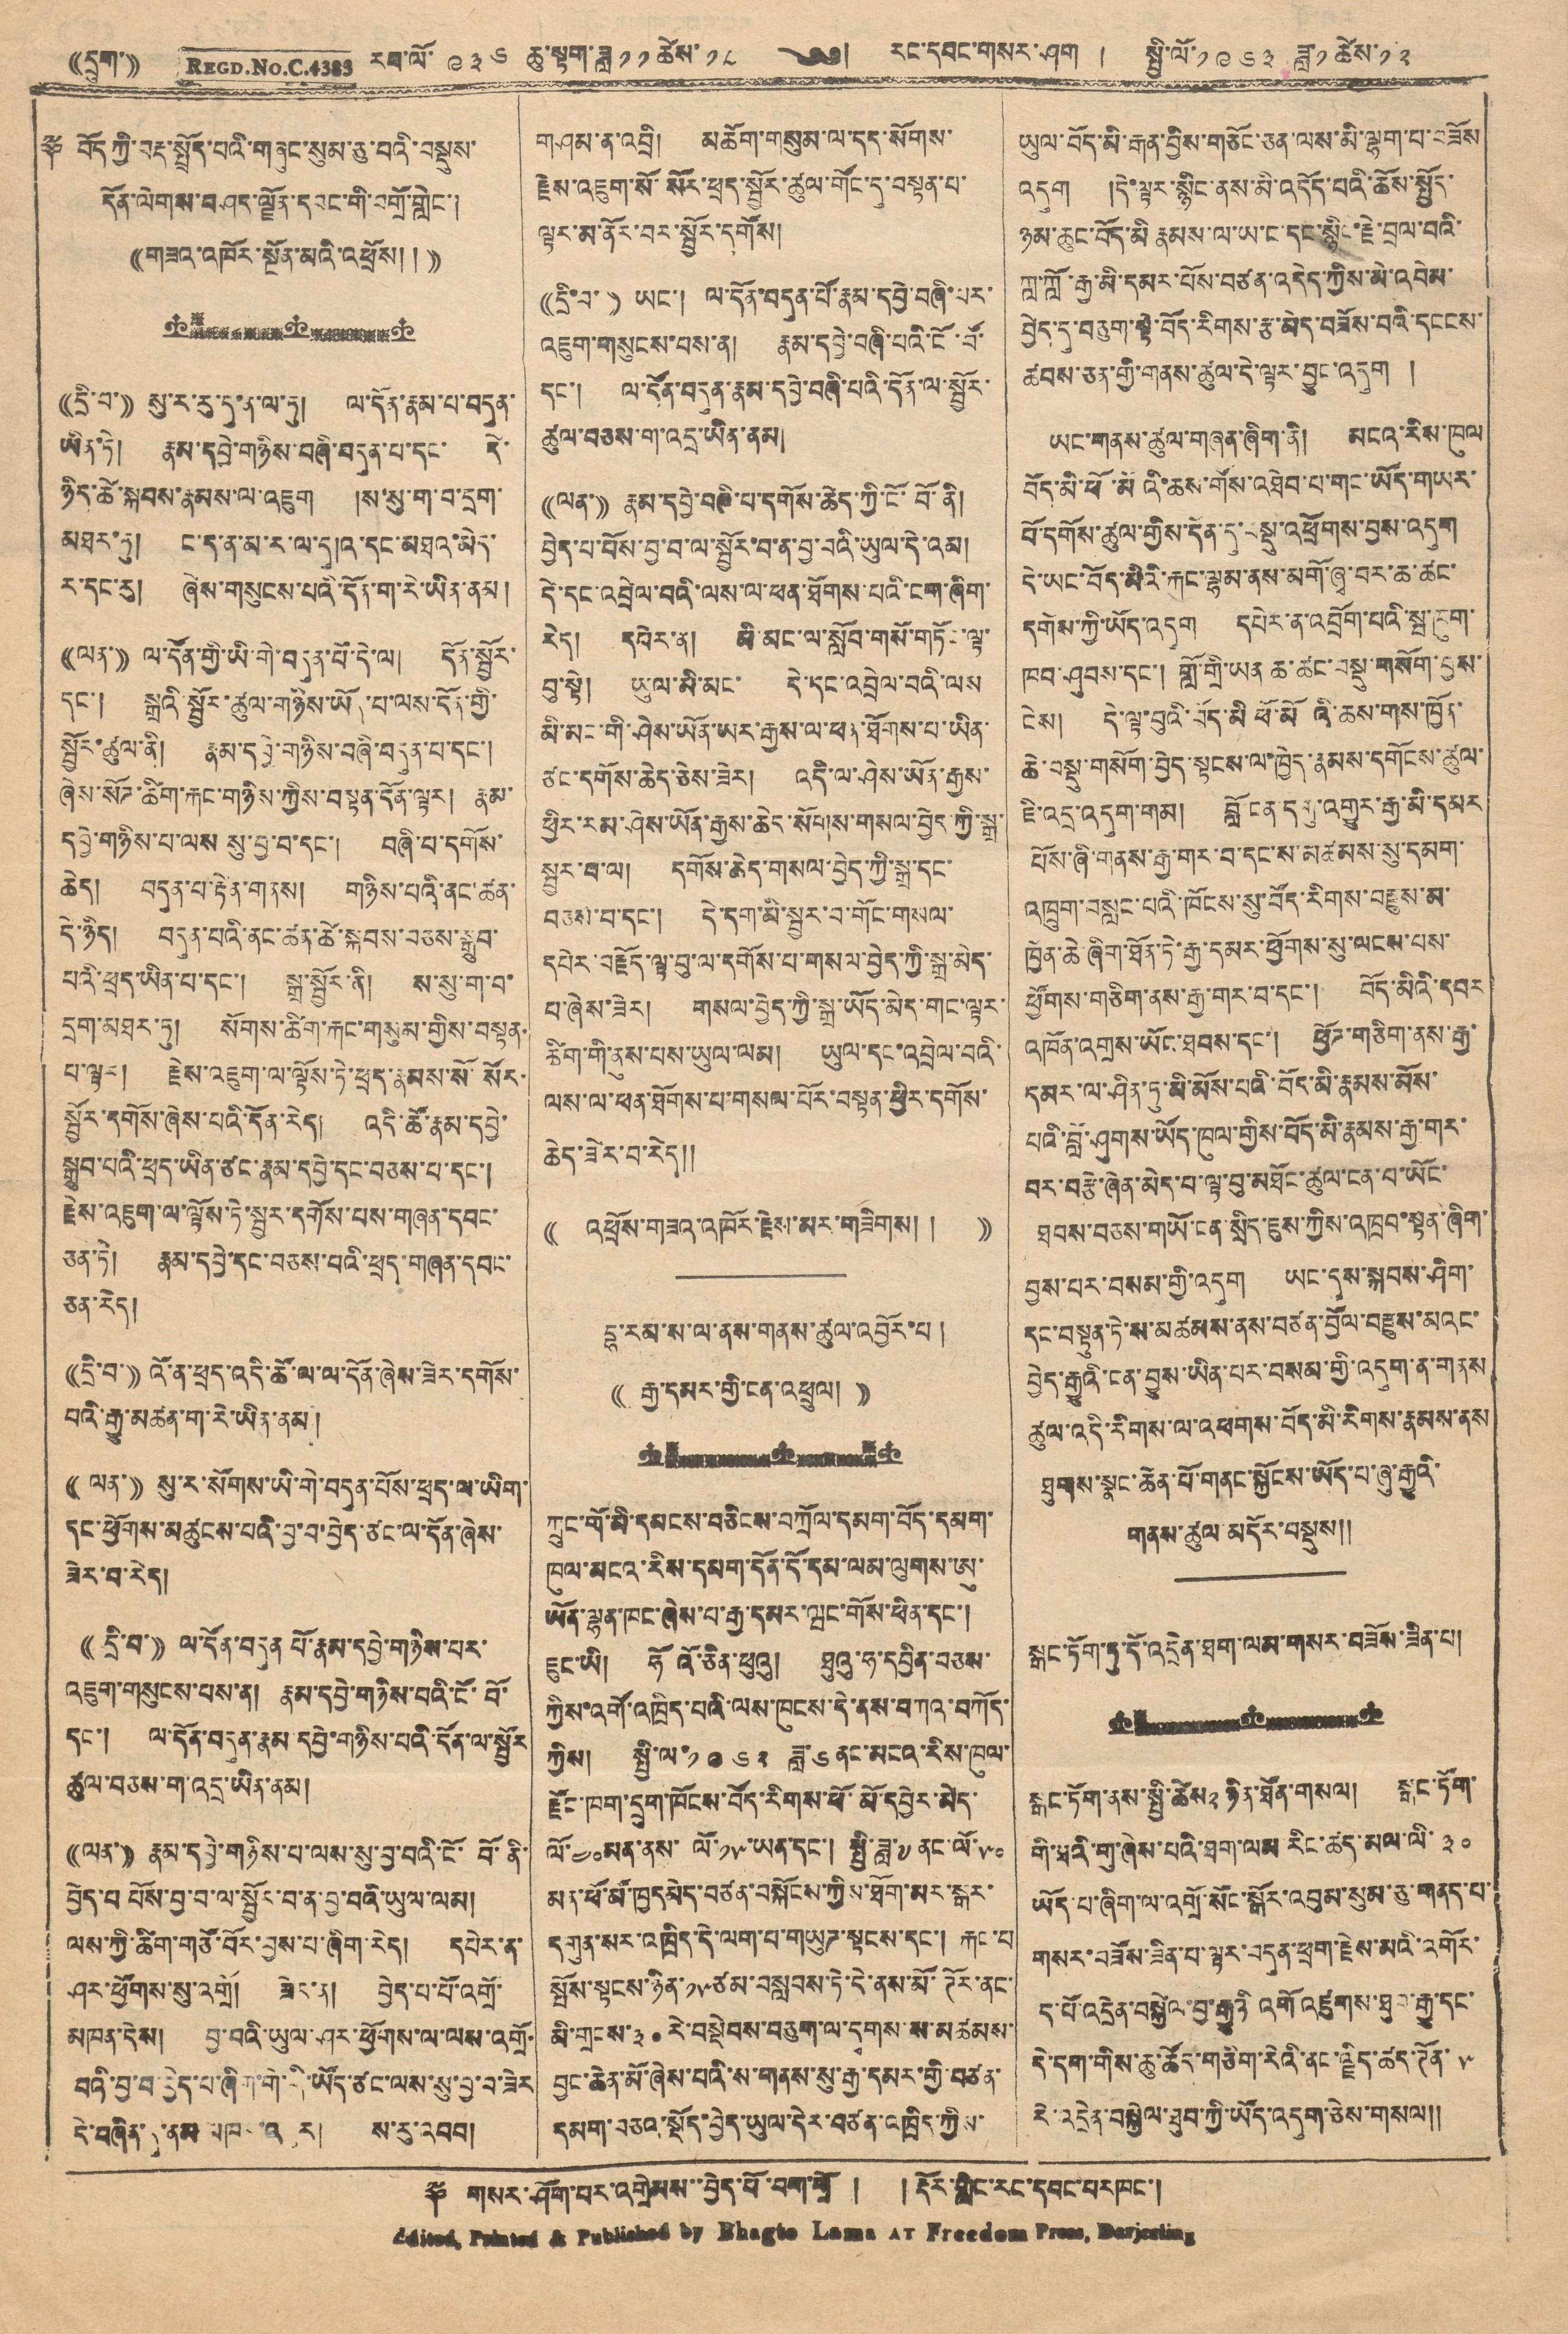(( དྲུག་ )) REGD. NO. C. 4383 རབ་ལོ་ ༩༣༦ ཆུ་སྟག་ཟླ ༡༡ ཚེས་ ༡༨ ༄༅། རང་དབང་གསར་ཤོག ། སྤྱི་ལོ་༡༩༦༣ ཟླ་༡ ཚེས་༡༢
༈ བོད་ཀྱི་བརྡ་སྤྲོད་པའི་གཞུང་སུམ་ཅུ་བའི་བསྡུས་
དོན་ལེགས་བཤད་ལྗོང་དབང་གི་བགྲོ་གླེང་།
((གཟའ་འཁོར་སྔོན་མའི་འཕྲོས། །))
((དྲི་བ་)) སུ་ར་རུ་དུ་ན་ལ་ཏུ། ལ་དོན་རྣམ་པ་བདུན་
ཡིན་ཏེ། རྣམ་དབྱེ་གཉིས་བཞི་བདུན་པ་དང་། དེ་
ཉིད་ཚེ་སྐབས་རྣམས་ལ་འཇུག །ས་སུ་ག་བ་དྲག་
མཐར་ཏུ། ང་ད་ན་མ་ར་ལ་དུ།འ་དང་མཐའ་མེད་
ར་དང་རུ། ཞེས་གསུངས་པའི་དོན་ག་རེ་ཡིན་ནམ།
((ལན་)) ལ་དོན་གྱི་ཡི་གེ་བདུན་པོ་དེ་ལ། དོན་སྦྱོར་
དང་། སྒྲ་སྦྱོར་ཚུལ་གཉིས་ཡོད་པ་ལས་དོན་གྱི་
སྦྱོར་ཚུལ་ནི། རྣམ་དབྱེ་གཉིས་བཞི་བདུན་པ་དང་།
ཞེས་སོཊ་ཚིག་སྐང་གནཡིས་ཀྱིས་བསྟན་དོན་ལྟར། རྣམ་
དབྱེ་གཉིས་པ་ལས སུ་བྱ་བ་དང་། བཞི་པ་དགོས་
ཆེད། བདུན་པ་རྟེན་གནས། གཉིས་པའི་ནང་ཚན་
དེ་ཉིད། བདུན་པའི་ནང་ཚན་ཚེ་སྐབས་བཅས་སྒྲུབ་
པའི་ཕྲད་ཡིན་པ་དང་། སྒྲ་སྦྱོར་ནི། ས་སུ་ག་བ་
དྲག་མཐར་ཏུ། སོགས་ཚིག་སྐང་གསུམ་གྱིས་བསྟན་
པ་ལྟར། རྗེས་འཇུག་ལ་ལྟོས་ཏེ་ཕྲད་རྣམས་སོ་སོར་
སྦྱོར་དགོས་ཞེས་པའི་དོན་རེད། འདི་ཚོ་རྣམ་དབྱེ་
སྒྲུབ་པའི་ཕྲད་ཡིན་ཙང་རྣམ་དབྱེ་དང་བཅས་པ་དང་།
རྗེས་འཇུག་ལ་སྟོས་ཏེ་སྦྱར་དགོས་པས་གཞན་དབང་
ཅན་ཏེ། རྣམ་དབྱེ་དང་བཅས་པའི་ཕྲད་གཞན་དབང་
ཅན་རེད།
((དྲི་བ་)) འོ་ན་ཕྲད་འདི་ཚོ་ལ་ལ་དོན་ཞེས་ཟེར་དགོས་
པའི་རྒྱུ་མཚན་ག་རེ་ཡིན་ནམ།
((ལན་)) སུ་ར་སོགས་ཡི་གེ་བདུན་པོས་ཕྲད་ལ་ཡིག་
དང་ཕྱོགས་མཚུངས་པའི་བྱ་བ་བྱེད་ཙང་ལ་དོན་ཞེས་
ཟེར་བ་རེད།
((དྲི་བ་)) ལ་དོན་བདུན པོ་རྣམ་དབྱེ་གཉིས་པར་
འཇུག་གསུངས་པས་ན། རྣམ་དབྱེ་གཉིས་པའི་ངོ་བོ་
དང་། ལ་དོན་བདུན་རྣམ དབྱེ་གཉིས་པའི་དོན་ལ་སྦྱོར
ཚུལ་བཅས་ག་འདྲ་ཡིན་ནམ།
((ལན་)) རྣམ་དབྱེ་གཉིས་པ་ལས་སུ་བྱ་བའི་ངོ་ བོ་ ནི་
བྱེད་པ པོས་བྱ་བ་ལ་སྦྱོར་བ་ན་བྱ་བའི་ཡུལ་ལམ།
ལས་ཀྱི་ཚིག་གཙོ་བོར་བྱས་པ་ཞིག་རེད། དཔེར་ན་
ཤར་ཕྱོགས་སུ་འགྲོ། ཟེར་ན། བྱེད་པ་པོ་འགྲོ་
མཁན་དེས། བྱ་བའི་ཡུལ་ཤར་ཕྱོགས་ལ་ལས་འགྲོ་
བའི་བྱ་བ་བྱེད་པ་ཞིག་གི་ནི་ཡོད་ཙང་ལ་སུ་བྱ་བ་ཟེར
དེ་བཞིན་དུ་ནམ་མཁར་འཕུར། ས་རུ་འབབ།
གཤམ་ན་འབྲི། མཆོག་གསུམ་ལ་དད་སོགས་
རྗེས་འཇུག་སོ་སོར་ཕྲད་སྦྱོར་ཚུལ་གོང་དུ་བསྟན་པ་
ལྟར་མ་ནོར་བར་སྦྱོར་དགོས།
((དྲི་བ་)) ཡང་། ལ་དོན་བདུན་པོ་རྣམ་དབྱེ་བཞི་པར་
འཇུག་གསུངས་པས་ན། རྣམ་དབྱེ་བཞི་པའི་ངོ་བོ་
དང་། ལ་དོན་བདུན་རྣམ་དབྱེ་བཞི་པའི་དོན་ལ་སྦྱོར་
ཚུལ་བཅས་ག་འདྲ་ཡིན་ནམ།
((ལན་)) རྣམ་དབྱེ་བཞི་པ་དགོས་ཆེད་ཀྱི་ངོ་བོ་ནི།
བྱེད་པ་པོས་བྱ་བ་ལ་སྦྱོར་བ་ན་བྱ་བའི་ཡུལ་དེ་འམ།
དེ་དང་འབྲེལ་བའི་ལས་ལ་ཕན་ཐོགས་པའི་ངག་ཞིག་
རེད། དཔེར་ན། མི་མང་ལ་སློབ་གསོ་གཏོང་ལྟ་་
བུ་སྟེ། ཡུལ་མི་མང་ དེ་དང་འབྲེལ་བའི་ལས
མི་མང་གི་ཤེས་ཡོན་ཡར་རྒྱས་ལ་ཕན་ཐོགས་པ་ཡིན་
ཙང་དགོས་ཆེད་ཅེས་ཟེར། འདི་ལ་ཤེས་ཡོན་རྒྱས་
ཕྱིར་རམ་ཤེས་ཡོན་རྒྱས་ཆེད་སོགས་གསལ་བྱེད་ཀྱི་སྒྲ་
སྦྱར་བ་ལ། དགོས་ཆེད་གསལ་བྱེད་ཀྱི་སྒྲ་དང་
བཅས་བ་དང་། དེ་དག་མི་སྦྱར་བ་གོང་གསལ་
དཔེར་བརྗོད་ལྟ་བུ་ལ་དགོས་པ་གསལ་བྱེད་ཀྱི་སྒྲ་མེད་
པ་ཞེས་ཟེར། གསལ་བྱེད་ཀྱི་སྒྲ་ཡོད་མེད་གང་ལྟར་
ཚིག་གི་ནུས་པས་ཡུལ་ལམ། ཡུལ་དང་འབྲེལ་བའི་
ལས་ལ་ཕན་ཐོགས་པ་གསལ་པོར་བསྟན་ཕྱིར་དགོས་
ཆེད་ཟེར་པ་རེད།།
(( འཕྲོས་གཟའ་འཁོར་རྗེས་མར་གཟིགས། ། ))
དྷ་རམ་ས་ལ་ནས་གནས་ཚུལ་འབྱོར་པ།
(( རྒྱ་དམར་གྱི་ངན་འཕྲུལ། ))
ཀྲུང་གོ་མི་དམངས་བཅིངས་བཀྲོལ་དམག་བོད་དམག་
ཁུལ་མངའ་རིས་དམག་དོན་དོ་དམ་ལམ་ལུགས་ཨུ་
ཡོན་ལྷན་ཁང་ཞེས་པ་རྒྱ་དམར་ཝང་གོས་ཕིན་དང་།
ཇུང་ཡི། ཧོའོ་ཅིན་ཕུའུ། ཐུའུ་ཧ་དབྱིན་བཅས་
ཀྱིས་འགོ་འཁྲིད་པའི་ལམ་ཁུངས་དེ་ནས་བཀའ་བཀོད་
ཀྱིས། སྤྱི་ལོ་༡༩༦༢ ཟླ་ ༦ ནང་མངའ་རིས་ཁུལ་
རྫོང་ཁག་དྲུག་ཁོངས་བོད་རིགས་ཕོ་མོ་དབྱེར་མེད་
ལོ་༤༠མན་ནས་ ལོ་༡༥ཡན་དང་། སྤྱི་ཟླ་༧ ནང་ལོ་༥༠
མན་ཕོ་མོ་ཁྱདམེད་བཙན་བསྐོངས་ཀྱིས་ཐོག་མར་སྒར་
དགུན་སར་འཁྲིད་དེ་ལག་པ་གཡུཊ་སྟངས་དང། རྐང་པ
སྤོས་སྟངས་ཉིན་༡༥ཙམ་བསླབས་ཏེ་དེ་ནས་མོ་ཊོར་ནང་
མི་གྲངས་༣༠ རེ་བསྡེབས་བཅུག་ལ་དྭགས་ས་མཚམས་
བྱང་ཆེན་མོ་ཞེས་པའི་ས་གནས་སུ་རྒྱ་དམར་གྱི་བཙན་
དམག་བཅའ་སྡོད་བྱེད་ཡུལ་དེར་བཙན་འཁྲིད་ཀྱིས་
ཡུལ་བོད་མི་རྒན་བྱིས་གཅོང་ཅན་ལས་མི་ལྷག་པ་བཟོས
འདུག །དེ་ལྟར་སྙིང་ན་སྨི་འདོད་པའི་ཆོས་སྤྱོད་
ཉམ་ཆུང་བོད་མི རྣམས་ལ་ཡང་ང་དང་སྙིང་རྗེ་བྲལ་བའི་
ཀླ་ཀློ་རྒྱ་མི་དམར་པོས་བཙན་འདེད་ཀྱིས་མེ་འབེམ་
བྱེད་དུ་བཅུག་སྟེ་བོད་རིགས་རྩ་མེད་བཟོས་བའི་དངངས་
ཚབས་ཅན་གྱི་གནས་ཚུལ་དེ་ལྟར་བྱུང་འདུག །
ཡང་གནས་ཚུལ་གཞན་ཞིག་ནི། མངའ་རིས་ཁུལ
བོད་མི་ཕོ་མོའི་ཆས་གོས་འཐེབ་པ་གང་ཡོད་གཡར་
བོ་དགོས་ཚུལ་གྱིས་དོན་དུ་བསྡུ་འཕྲོགས་བྱས་འདུག
དེ་ཡང་བོད་མིའི་རྐང་ལྷམ་ནས་མགོ་ཞྭ་བར་ཆ་ཚང་
དགོས་ཀྱི་ཡོད་འདུག དཔེར་ན་འབྲོག་པའི་སྦ་ཁུག་
ཁབ་ཤུགས་དང་། གློ་གྲི་ཡན ཆ་ཚང་བསྡུ་གསོག་བྱས་
ངེས། དེ་ལྟར་བུའི་བོད་མི་ཕོ་མོའི་ཆས་གོས་ཁྱོན་
ཆེ་བསྡུ་གསག་བྱེད་སྟངས་ལ་ཁྱེད་རྣམས་དགོངས་ཚུལ་
ཇི་འདྲ་འདུག་གམ། བློ་ངན་དགུ་འགྱུར་རྒྱ་མི་དམར
པོས་ཞི་གནས་རྒྱ་གར་བ་དང་ས་མཚམས་སུ་དམག་
འཁྲུག་བསླང་པའི་ཁོངས་སུ་བོད་རིགས་བརྫུས་མ་
ཁྱོན་ཆེ་ཞིག་ཐོན་ཏེ་རྒྱ་དམར་ཕྱོགས་སུ་ལངས་པས་
ཕྱོགས་གཅིག་ནས་རྒྱ་གར་བ་དང་། བོད་མིའི་དབར
འཁོན་འགྲས་ཡོང་ཐབས་དང་། ཕྱོཊ་གཅིག་ནས་རྒྱ་
དམར་ལ་ཤིན་ཏུ་མི་མོས་པའི་བོད་མི་རྣམས་མོས་
པའི་བློ་ཤུགས་ཡོད་ཁུལ་གྱིས་བོད་མི་རྣམས་རྒྱ་གར་
བར་བརྩེ་ཞེན་མེད་པ་ལྟ་བུ་མཐོང་ཚུལ་ངན་པ་ཡོང་
ཐབས་བཅས་གཡོ་ངན་སྲིད་ཇུས་ཀྱིས་འཁྲབ་སྟན་ཞིག་
བྱས་པར་བསམ་གྱི་འདུག ཡང་དུས་སྐབས་ཤིག་
དང་བསྟུན་ཏེ་ས་མཚམས་ནས་བཙན་བྱོལ་བརྫུས་མའང་
བྱེད་རྒྱུའི་ངན་བྱུས་ཡིན་པར་བསམ་གྱི་འདུག་ན་གནས
ཚུལ་འདི་རིགས་ལ་འཕགས་བོད་མི་རིགས་རྣམས་ནས
ཐུགས་སྣང་ཆེན་པོ་གནང་སྐྱོངས་ཡོད་པ་ཞུ་རྒྱུའི་
གནས་ཚུལ་མདོར་བསྡུས།།
སྒང་ཏོག་ཏུ་དོ་འདྲེན་ཐག་ལམ་གསར་བཟོས་ཟིན་པ།
སྒང་ཏོག་ནས་སྤྱི་ཚེས་ ༢ ཉིན་ཐོན་གསལ། སྒང་ཏོག་
གི་ཐའི་གུ་ཞེས་པའི་ཐག་ལམ་རིང་ཚད་མལ་ལི་ ༣༠
ཡོད་པ་ཞིག་ལ་འགྲོ་སོང་སྒོར་འབུམ་སུམ་ཅུ་གནད་པ་
གསར་བཟོས་ཟིན་པ་ལྟར་བདུན་ཕྲག་རྗེས་མའི་འགོར་
ད་པོ་འདྲེན་བསྐྱེལ་བྱ་རྒྱུའི འགོ འཛུགས་ཐུབ་རྒྱུ་དང་
དེ་དག་གིས་ཆུ་ཚོད་གཅིག་རེའི་ནང་ལྗིད་ཚད་ཊོན་ ༥
རེ་འདྲེན་བསྐྱེལ་ཐུབ་ཀྱི་ཡོད་འདུག་ཅེས་གསལ།།
༈ གསར་ཤོག་པ་འགྲེམས་བྱེད་པོ་བག་གྲོ ། །རྡོར་གླིང་རང་དབང་པར་ཁང་།
Edited Printed & Published by Bhagto Lama AT Freedom Press, Darjeeling
